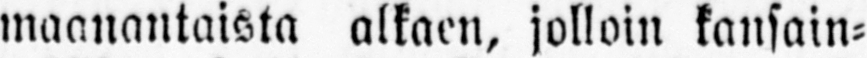maanantaista alkaen, jolloin kansain-
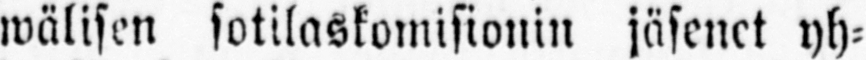wälisen sotilaskomisionin jäsenet yh-
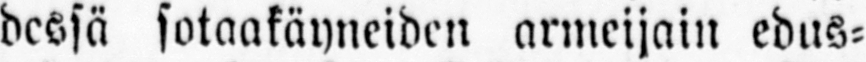dessä sotaakäyneiden armeijain edus-
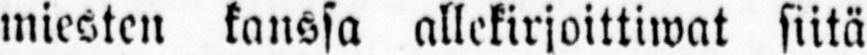miesten kanssa allekirjoittiwat siitä
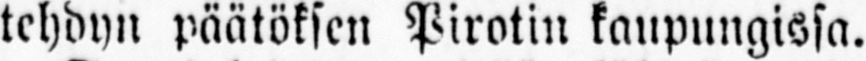tehdyn päätöksen Pirotin kaupungissa.
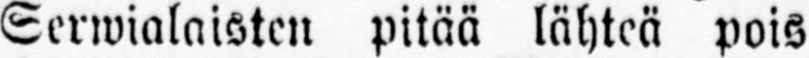Serwialaisten pitää lähteä pois
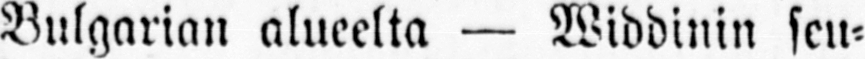Bulgarian alueelta — Widdinin seu-
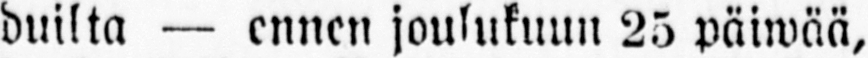duilta — ennen joulukuun 25 päiwää,
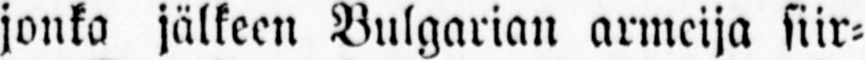jonka jälkeen Bulgarian armeija siir-
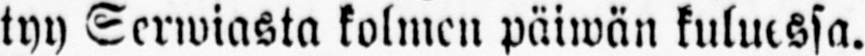tyy Serwiasta kolmen päiwän kuluessa.
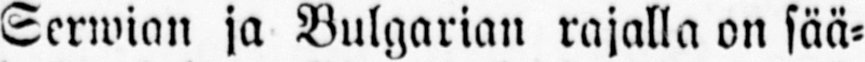Serwian ja Bulgarian rajalla on sää-
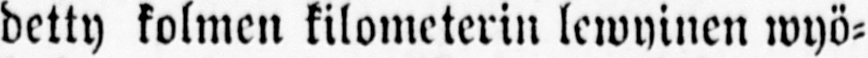detty kolmen kilometeriu lewyinen wyö-
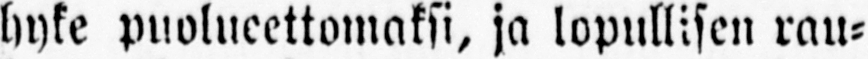hyke puolueettomaksi, ja lopullisen rau-
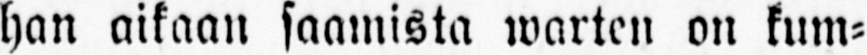han aikaan saamista warten on kum-
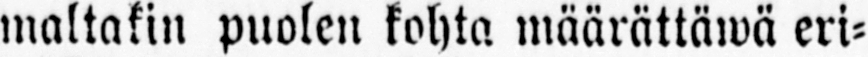maltakin puolen kohta määrättäwä eri-
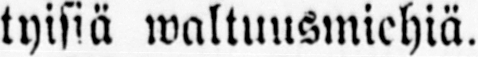tyisiä waltuusmiehiä.
